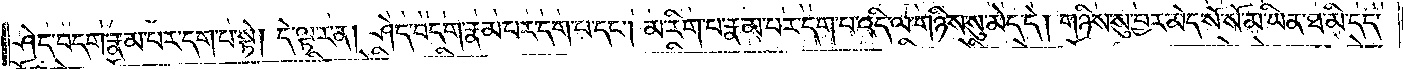ཤེད་བདག་རྣམ་པར་དག་པ་སྟེ། དེ་ལྟར་ན། ཤེད་བདག་རྣམ་པར་དག་པ་དང༌། མ་རིག་པ་རྣམ་པར་དག་པ་འདི་ལ་གཉིས་སུ་མེད་དེ། གཉིས་སུ་བྱར་མེད་སོ་སོ་མ་ཡིན་ཐ་མི་དད་
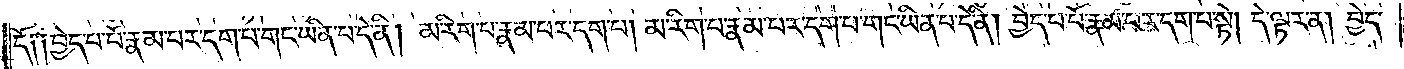དོ། །བྱེད་པ་པོ་རྣམ་པར་དག་པ་གང་ཡིན་པ་དེ་ནི། མ་རིག་པ་རྣམ་པར་དག་པ། མ་རིག་པ་རྣམ་པར་དག་པ་གང་ཡིན་པ་དེ་ནི། བྱེད་པ་པོ་རྣམ་པར་དག་པ་སྟེ། དེ་ལྟར་ན། བྱེད་
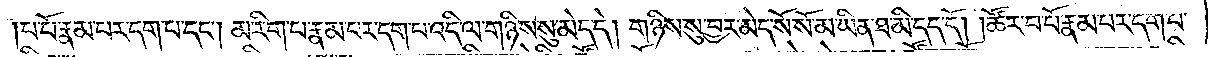པ་པོ་རྣམ་པར་དག་པ་དང༌། མ་རིག་པ་རྣམ་པར་དག་པ་འདི་ལ་གཉིས་སུ་མེད་དེ། གཉིས་སུ་བྱར་མེད་སོ་སོ་མ་ཡིན་ཐ་མི་དད་དོ། །ཚོར་བ་པོ་རྣམ་པར་དག་པ་
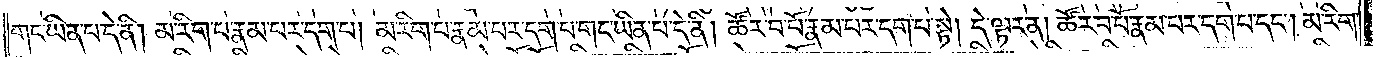གང་ཡིན་པ་དེ་ནི། མ་རིག་པ་རྣམ་པར་དག་པ་དང༌། མ་རིག་པ་རྣམ་པར་དག་པ་གང་ཡིན་པ་དེ་ནི། ཚོར་བ་པོ་རྣམ་པར་དག་པ་སྟེ། དེ་ལྟར་ན། ཚོར་བ་པོ་རྣམ་པར་དག་པ་དང༌། མ་རིག་
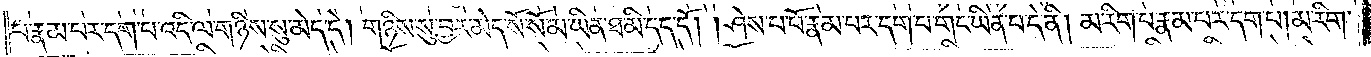པ་རྣམ་པར་དག་པ་འདི་ལ་གཉིས་སུ་མེད་དེ། གཉིས་སུ་བྱར་མེད་སོ་སོ་མ་ཡིན་ཐ་མི་དད་དོ། །ཤེས་པ་པོ་རྣམ་པར་དག་པ་གང་ཡིན་པ་དེ་ནི། མ་རིག་པ་རྣམ་པར་དག་པ། །མ་རིག་
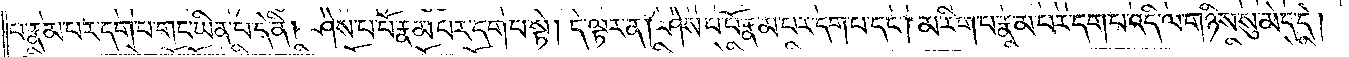པ་རྣམ་པར་དག་པ་གང་ཡིན་པ་དེ་ནི། ཤེས་པ་པོ་རྣམ་པར་དག་པ་སྟེ། དེ་ལྟར་ན། ཤེས་པ་པོ་རྣམ་པར་དག་པ་དང༌། མ་རིག་པ་རྣམ་པར་དག་པ་འདི་ལ་གཉིས་སུ་མེད་དེ།
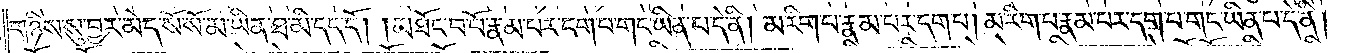གཉིས་སུ་བྱར་མེད་སོ་སོ་མ་ཡིན་ཐ་མི་དད་དོ། །མཐོང་བ་པོ་རྣམ་པར་དག་པ་གང་ཡིན་པ་དེ་ནི། མ་རིག་པ་རྣམ་པར་དག་པ། མ་རིག་པ་རྣམ་པར་དག་པ་གང་ཡིན་པ་དེ་ནི།
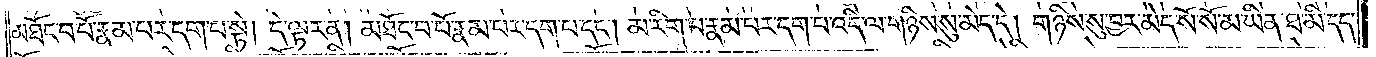མཐོང་བ་པོ་རྣམ་པར་དག་པ་སྟེ། དེ་ལྟར་ན། མཐོང་བ་པོ་རྣམ་པར་དག་པ་དང༌། མ་རིག་པ་རྣམ་པར་དག་པ་འདི་ལ་གཉིས་སུ་མེད་དེ། གཉིས་སུ་བྱར་མེད་སོ་སོ་མ་ཡིན་ཐ་མི་དད་
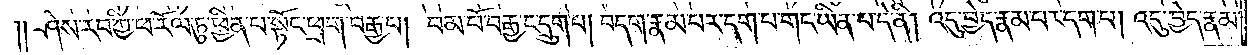༎ཤེས་རབ་ཀྱི་ཕ་རོལ་ཏུ་ཕྱིན་པ་སྟོང་ཕྲག་བརྒྱ་པ། བམ་པོ་བརྒྱ་ང་དྲུག་པ། བདག་རྣམ་པར་དག་པ་གང་ཡིན་པ་དེ་ནི། འདུ་བྱེད་རྣམ་པར་དག་པ། འདུ་བྱེད་རྣམ་
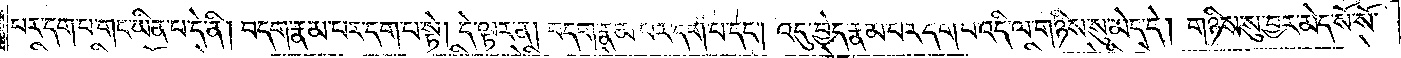པར་དག་པ་གང་ཡིན་པ་དེ་ནི། བདག་རྣམ་པར་དག་པ་སྟེ། དེ་ལྟར་ན། བདག་རྣམ་པར་དག་པ་དང༌། འདུ་བྱེད་རྣམ་པར་དག་པ་འདི་ལ་གཉིས་སུ་མེད་དེ། གཉིས་སུ་བྱར་མེད་སོ་སོ་
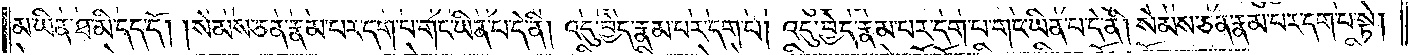མ་ཡིན་ཐ་མི་དད་དོ། །སེམས་ཅན་རྣམ་པར་དག་པ་གང་ཡིན་པ་དེ་ནི། འདུ་བྱེད་རྣམ་པར་དག་པ། འདུ་བྱེད་རྣམ་པར་དག་པ་གང་ཡིན་པ་དེ་ནི། སེམས་ཅན་རྣམ་པར་དག་པ་སྟེ།
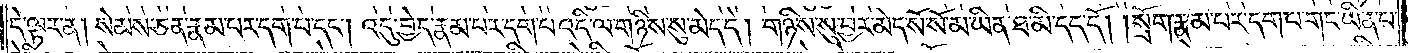དེ་ལྟར་ན། སེམས་ཅན་རྣམ་པར་དག་པ་དང༌། འདུ་བྱེད་རྣམ་པར་དག་པ་འདི་ལ་གཉིས་སུ་མེད་དེ། གཉིས་སུ་བྱར་མེད་སོ་སོ་མ་ཡིན་ཐ་མི་དད་དོ། །སྲོག་རྣམ་པར་དག་པ་གང་ཡིན་པ་
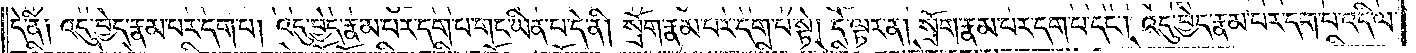དེ་ནི༑ འདུ་བྱེད་རྣམ་པར་དག་པ། འདུ་བྱེད་རྣམ་པར་དག་པ་གང་ཡིན་པ་དེ་ནི། སྲོག་རྣམ་པར་དག་པ་སྟེ། དེ་ལྟར་ན། སྲོག་རྣམ་པར་དག་པ་དང༌། འདུ་བྱེད་རྣམ་པར་དག་པ་འདི་ལ་
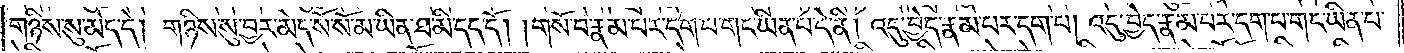གཉིས་སུ་མེད་དེ། གཉིས་སུ་བྱར་མེད་སོ་སོ་མ་ཡིན་ཐ་མི་དད་དོ། །གསོ་བ་རྣམ་པར་དག་པ་གང་ཡིན་པ་དེ་ནི། འདུ་བྱེད་རྣམ་པར་དག་པ། འདུ་བྱེད་རྣམ་པར་དག་པ་གང་ཡིན་པ་
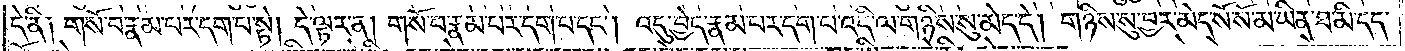དེ་ནི༑ གསོ་བ་རྣམ་པར་དག་པ་སྟེ། དེ་ལྟར་ན། གསོ་བ་རྣམ་པར་དག་པ་དང༌། འདུ་བྱེད་རྣམ་པར་དག་པ་འདི་ལ་གཉིས་སུ་མེད་དེ། གཉིས་སུ་བྱར་མེད་སོ་སོ་མ་ཡིན་ཐ་མི་དད་
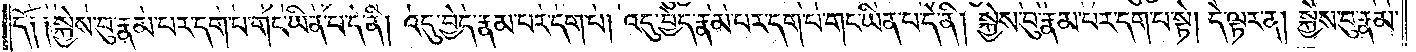དོ༑ ༑སྐྱེས་བུ་རྣམ་པར་དག་པ་གང་ཡིན་པ་དེ་ནི། འདུ་བྱེད་རྣམ་པར་དག་པ། འདུ་བྱེད་རྣམ་པར་དག་པ་གང་ཡིན་པ་དེ་ནི། སྐྱེས་བུ་རྣམ་པར་དག་པ་སྟེ། དེ་ལྟར་ན། སྐྱེས་བུ་རྣམ་
